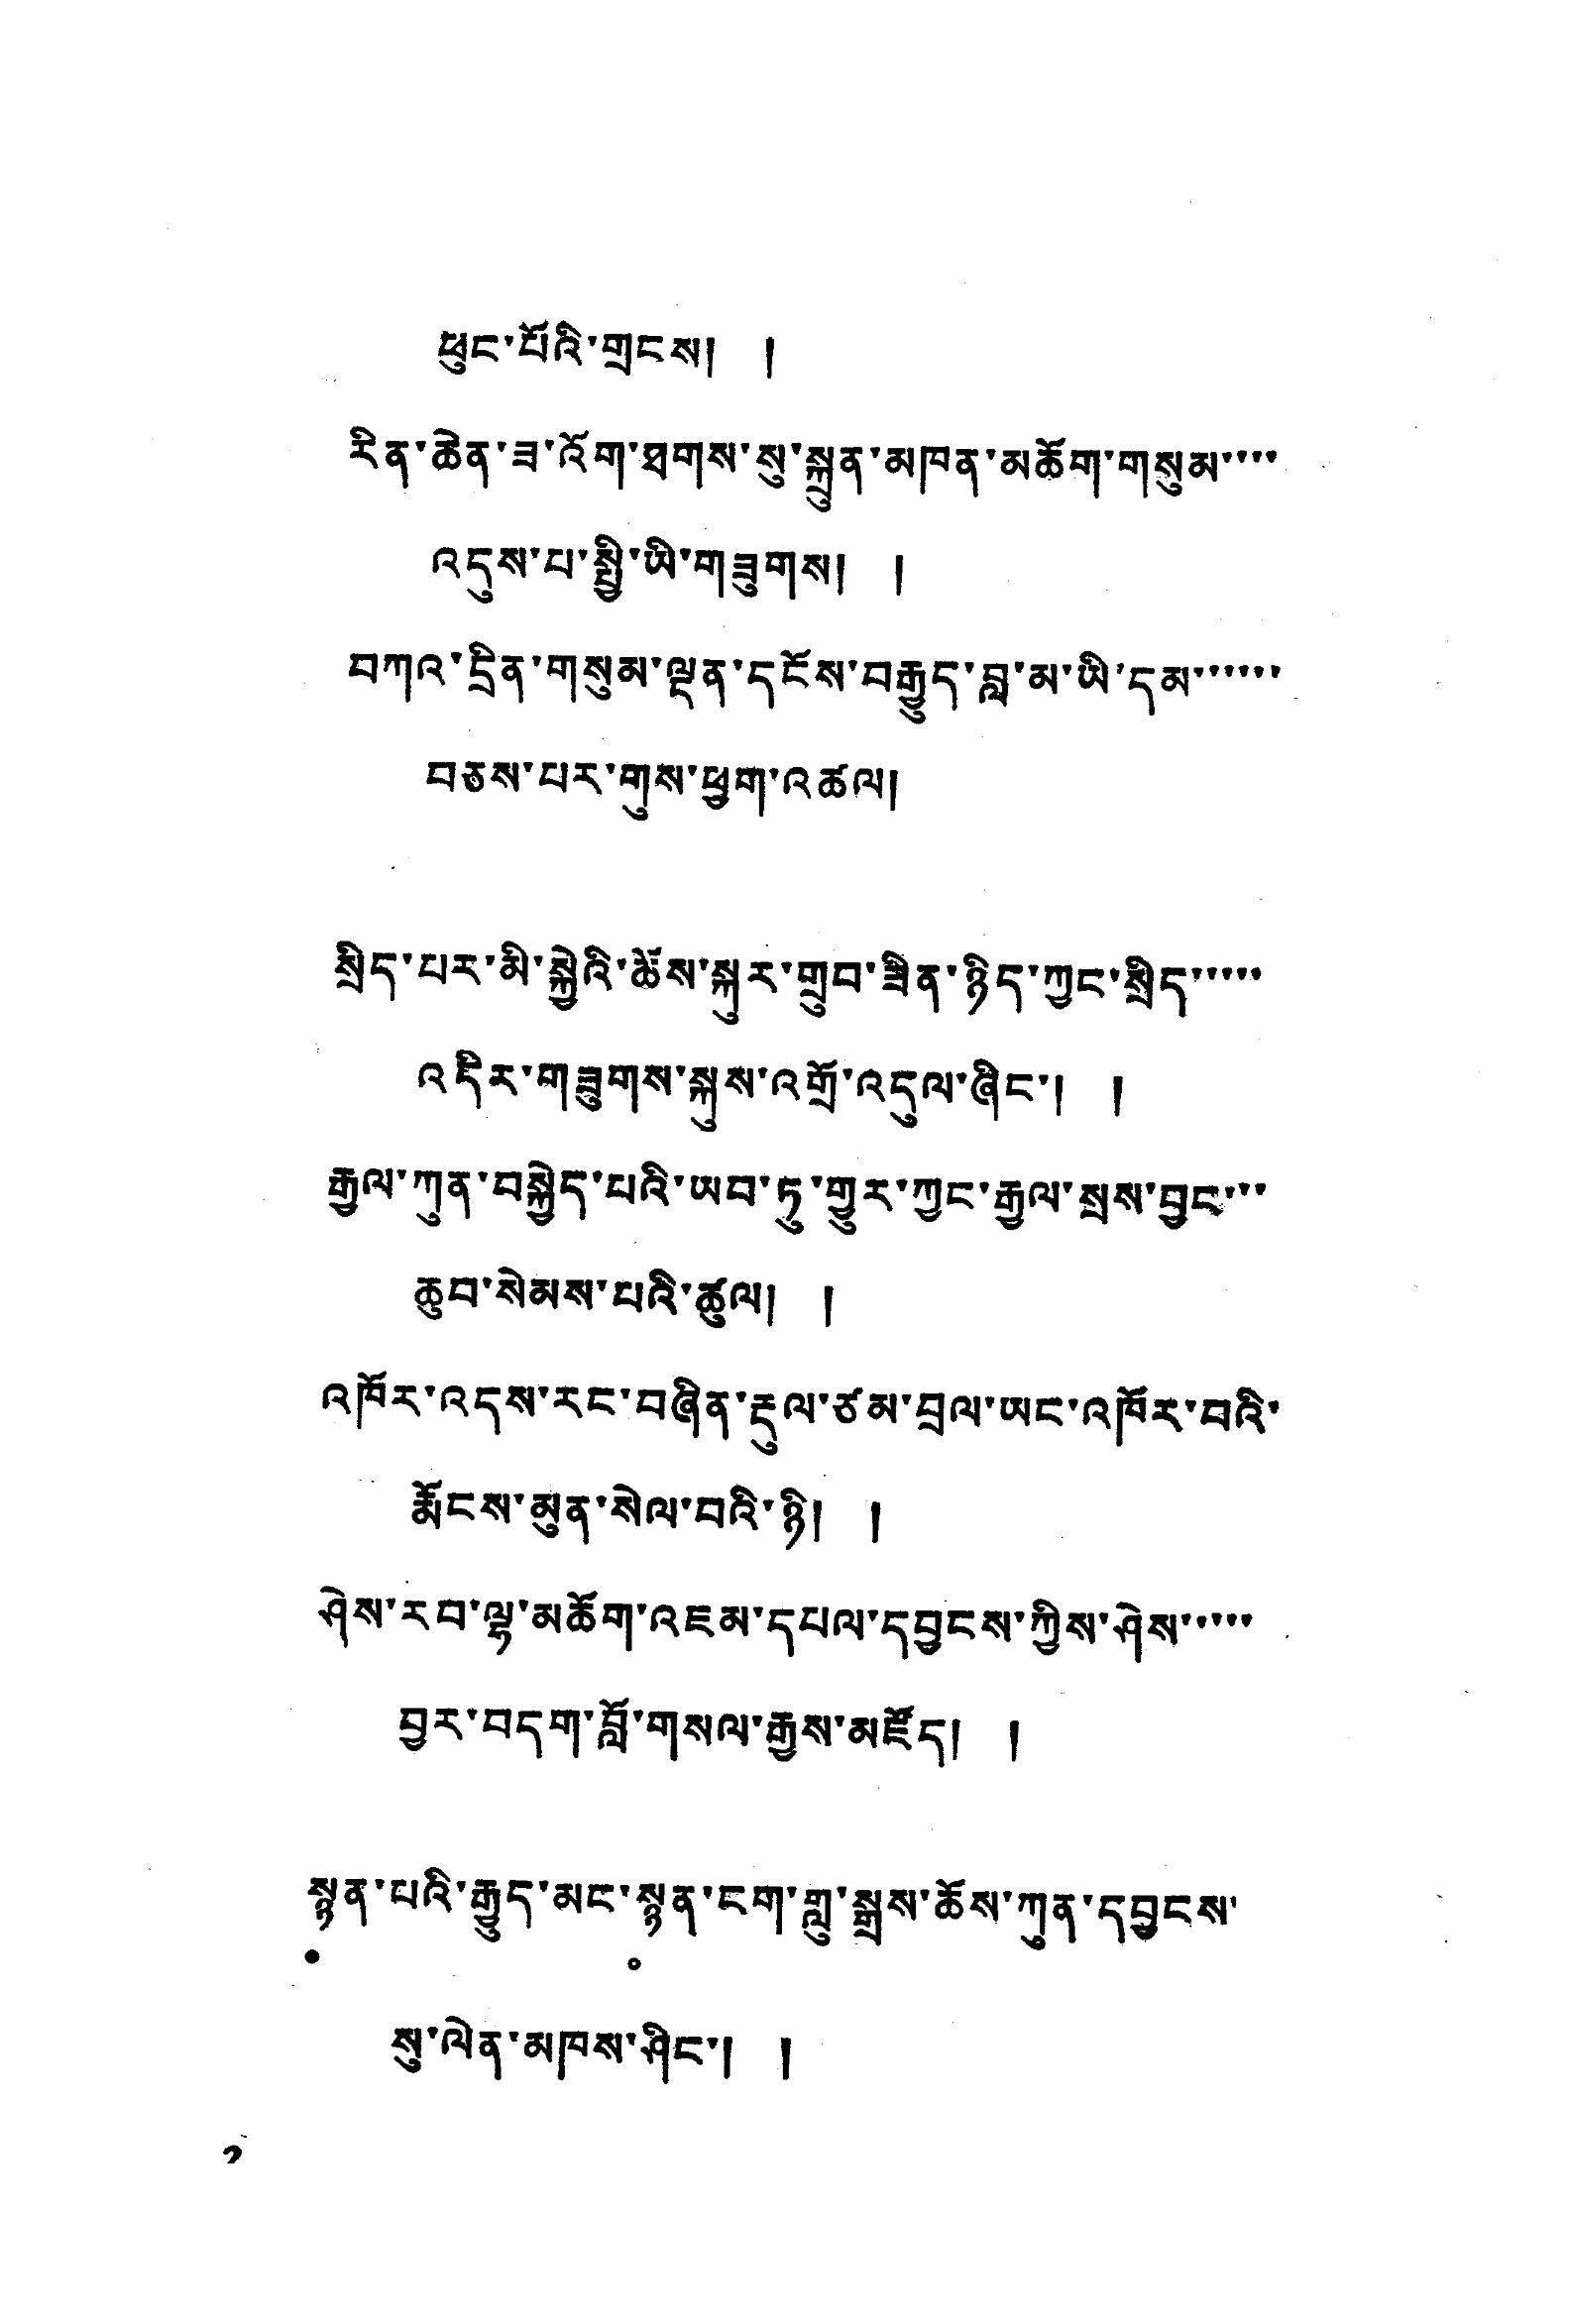ཕུང་པོའི་གྲངས། །
རིན་ཆེན་ཟ་འོག་ཐགས་སུ་སྐྲུན་མཁན་མཆོག་གསུམ་་་་
འདུས་པ་སྤྱི་ཡི་གཟུགས། །
བཀའ་དྲིན་གསུམ་ལྡན་དངོས་བརྒྱུད་བླ་མ་ཡི་དམ་་་་་་
བཅས་པར་གུས་ཕྱག་འཚལ།
སྲིད་པར་མི་སྐྱེའི་ཆོས་སྐུར་གྲུབ་ཟིན་ཉིད་ཀྱང་སྲིད་་་་་
འདིར་གཟུགས་སྐུས་འགྲོ་འདུལ་ཞིང་། །
རྒྱལ་ཀུན་བསྐྱེད་པའི་ཡབ་ཏུ་གྱུར་ཀྱང་རྒྱལ་སྲས་བྱང་་་
ཆུབ་སེམས་པའི་ཚུལ། །
འཁོར་འདས་རང་བཞིན་རྡུལ་ཙམ་བྲལ་ཡང་འཁོར་བའི་
རྨོངས་མུན་སེལ་བའི་ཉི། །
ཤེས་རབ་ལྷ་མཆོག་འཇམ་དཔལ་དབྱངས་ཀྱིས་ཤེས་་་་་
བྱར་བདག་བློ་གསལ་རྒྱས་མཛོད། །
སྙན་པའི་རྒྱུད་མང་སྙན་ངག་གླུ་སྒྲས་ཆོས་ཀུན་དབྱངས་
སུ་ལེན་མཁས་ཤིང་། །
2
